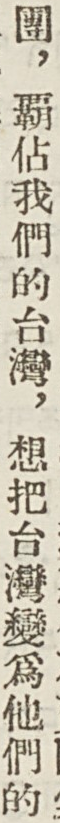團，霸佔我們的台灣，想把台灣變爲他們的
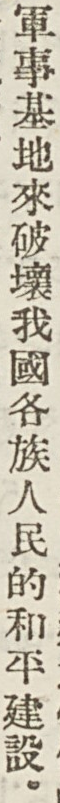軍事基地來破壞我國各族人民的和平建設。
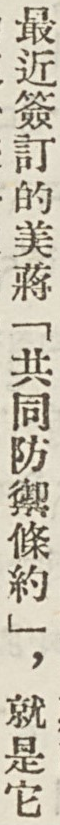最近簽訂的美蔣「共同防禦條約」，就是它
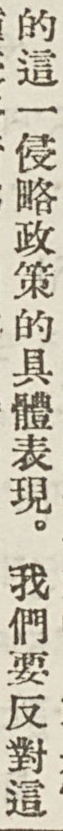的這一侵略政策的具體表現。我們要反對這
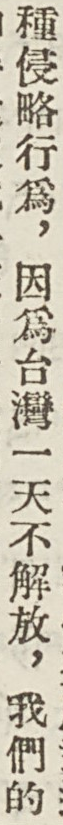種侵略行爲，因爲台灣一天不解放，我們的
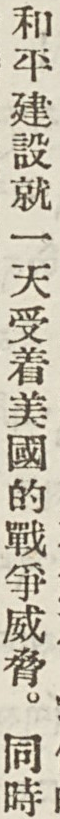和平建設就一天受着美國的戰爭威脅。同時
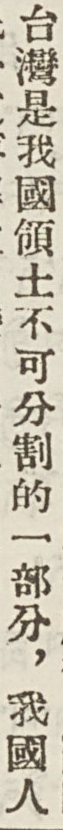台灣是我國領土不可分割的一部分，我國人
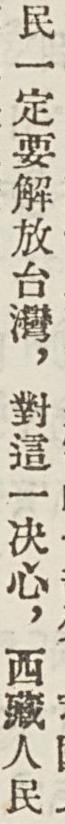民一定要解放台灣，對這一決心，西藏人民
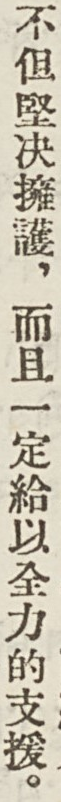不但堅決擁護，而且一定給以全力的支援。
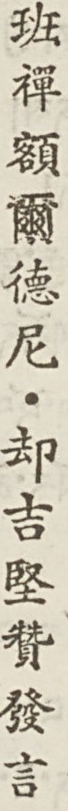班禪額爾德尼・却吉堅贊發言
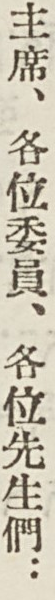主席、各爲委員、各位先生們：
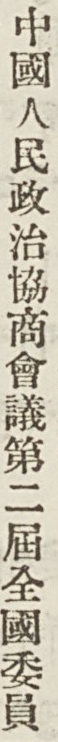中國人民政治協商會議第二屆全國委員
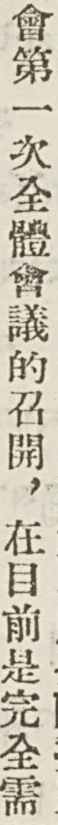會第一次全體會議的召開，在目前是完全需
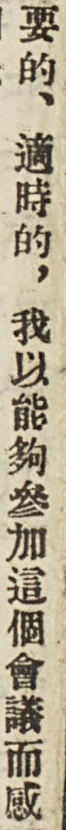要的、適時的，我以能夠參加這個會議而感
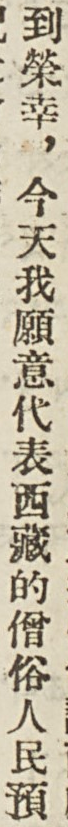到榮幸，今天我願意代表西藏的僧俗人民預
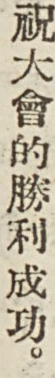祝大會的勝利成功。
